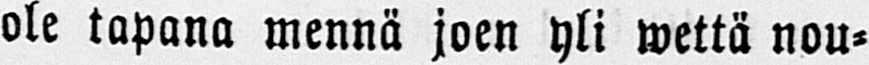ole tapana mennä joen yli wettä nou-
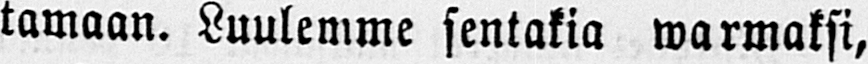tamaan. Luulemme sentakia warmaksi,
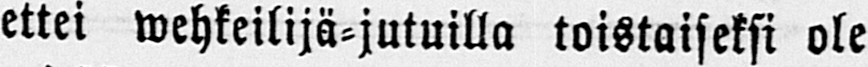ettei wehkeilijä-jutuilla toistaiseksi ole
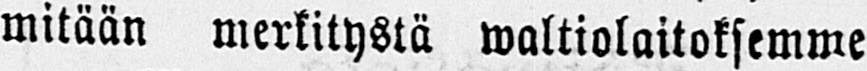mitään merkitystä waltiolaitoksemme
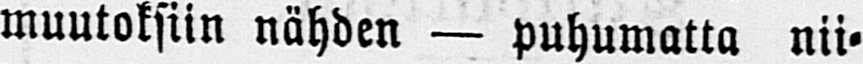muutoksiin nähden — puhumatta nii-
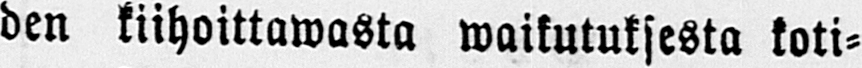den kiihoittawasta waikutuksesta koti-
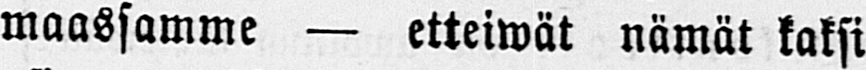maassamme — etteiwät nämät kaksi
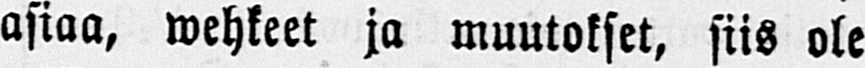asiaa, wehkeet ja muutokset, siis ole
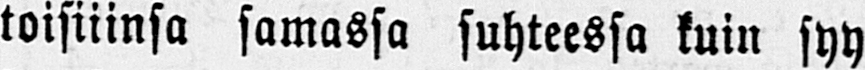toisiiinsa samassa suhteessa kuin syy
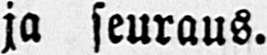ja seuraus.
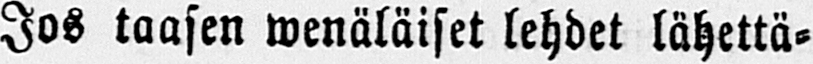Jos taasen wenäläiset lehdet lähettä-
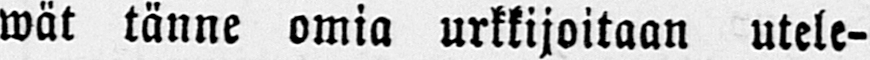wät tänne omia urkkijoitaan utele-
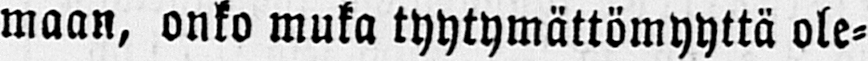maan, onko muka tyytymättömyyttä ole-
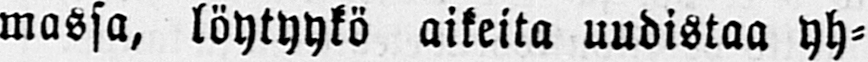massa, löytyykö aikeita uudistaa yh-
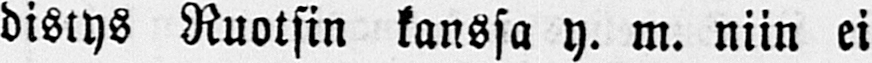distys Ruotsin kanssa y. m. niin ei
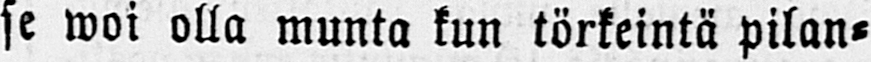se woi olla munta kun törkeintä pilan-
